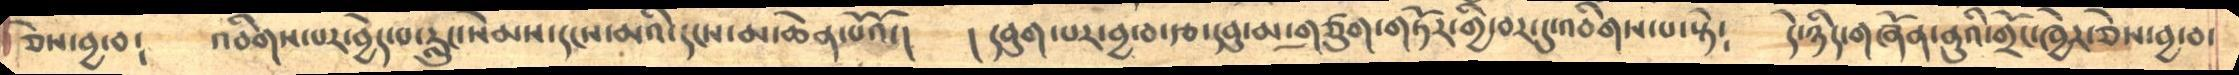ཅེས་བྱ་བ༴   འབིགས་པར་བྱེད་པ་རླུང་སེམས་དངས་མའི་དངས་མ་ཆེན་པོའོ་།    ། དབུག་པར་བྱ་བ་རྩ་དབུ་མ་གཙུག་གཏོར་གྱི་བར་དུ་འབིགས་པ་སྟེ༴    དེ་ཉིད་གཞོན་ནུའི་གྲོང་ཁྱེར་ཅེས་བྱ་བ་
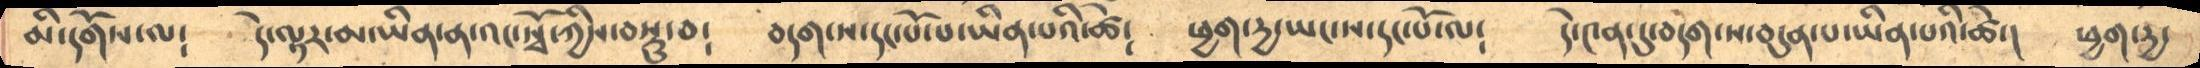མི་དགོས་ལ༴    དེ་ལྟར་མ་ཡིན་ན་འང་སྭོ་ཀྱིས་བསྡུ་བ༴    བདག་ས་དང་པོ་པ་ཡིན་པའི་ཚེ༴    ཕྱག་དྱ་ཡང་ས་དང་པོ་ལ༴   དེ་༤ན་དུ་བདག་ས་བདུན་པ་ཡིན་པའི་ཚེ་།   ཕྱག་དྱ་
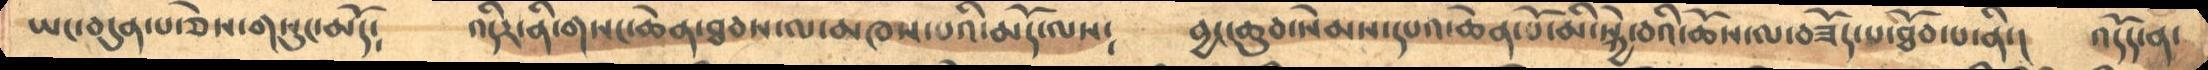ཡང་བདུན་པ་ཅེས་གསུང་མོད༴    འདིར་ནི་གསང་ཆེན་ཐབས་ལ་མཁས་པའི་མདོ་ལས༴    བྱང་ཆུབ་སེམས་དཔའ་ཆེན་པོ་མི་སྐྱེ་བའི་ཆོས་ལ་བཟོད་པ་ཐོབ་པ་ནི་།    འདོད་ན་
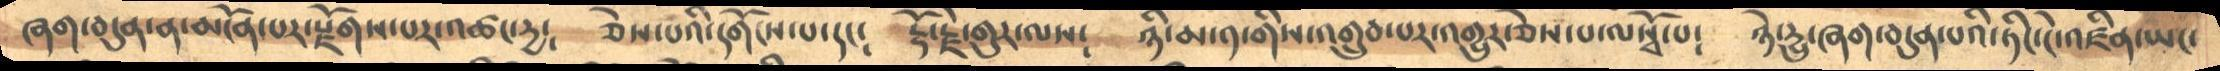ཞག་བདུན་ན་མངོན་པར་སྗོགས་པར་འཚང་དྱ༴    ཅེས་པའི་དགོངས་པ་དང༴    རྡོ་རྗེ་གུར་ལས༴     ཉི་མ་༡་གིས་འགྲུབ་པར་འགྱུར་ཅེས་པ་ལསྭོ་པ༴   ཉེ་དྱུ་ཞག་བདུན་པའི་ཏིང་ངེ་འཛིན་ཡང་
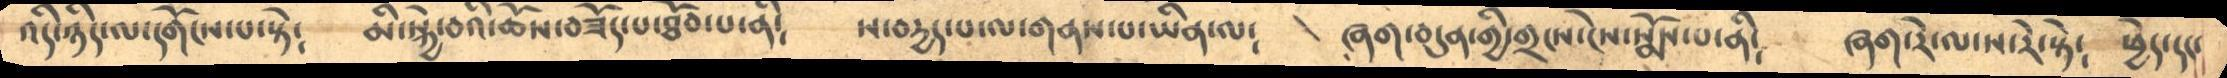འདི་ཉིད་ལ་དགོངས་པ་སྟེ༴  མི་སྐྱེ་བའི་ཆོས་བཟོད་པ་ཐོབ་པ་ནི༴   ས་བདྱད་པ་ལ་གནས་པ་ཡིན་ལ༴    ཞག་བདུན་གྱི་གྲངས་ངེས་སྨོས་པ་ནི༴   ཞག་རེ་ལ་ས་རེ་སྟེ༴   ཕྱེད་དང་
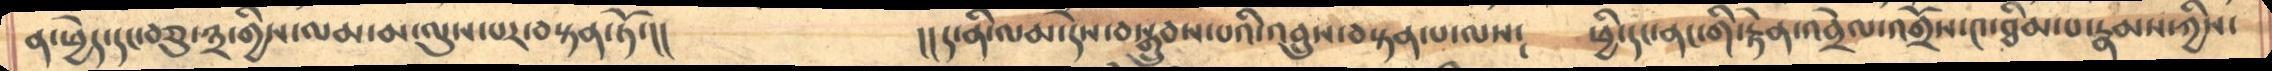ན་ཕྱེད་དང་བཅུ་༣་གྱིས་ལམ་མ་ལུས་པར་བསྟན་ཏོ་།།             །།ད་ནི་ལམ་དེས་བསྒྲུབས་པའི་འབྲུས་བསྟན་པ་ལས༴    ཕྱི་དང་ནང་གི་རྟེན་འབྲེལ་འགྲོས་༤་ཐིམ་པ་རྣམས་ཀྱིས་
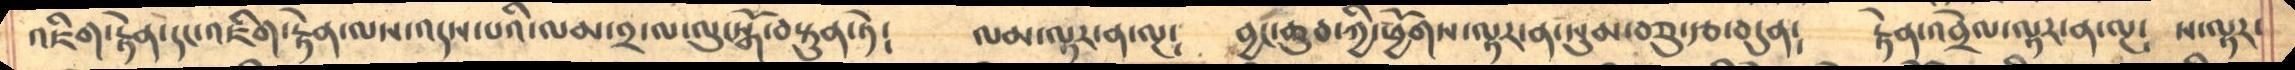འཇིག་རྟེན་དང་འཇིག་རྟེན་ལས་འདས་པའི་ལམ་༢་ལ་ལུངསྒོ་བསྟུན་ཏེ༴     ལམ་ལྟར་ན་ལྔ༴   བྱང་ཆུབ་ཀྱི་ཕྱོགས་ལྟར་ན་སུམ་བཅུ་རྩ་བདུན༴   རྟེན་འབྲེལ་ལྟར་ན་ལྔ༴   ས་ལྟར་
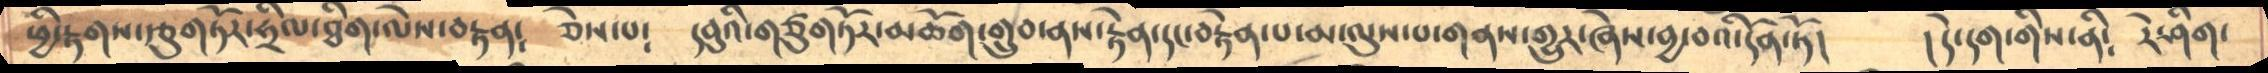ཕྱི་རྟགས་དཅུགཏོར་ཧྲིལ་ཐིག་ལེས་བརྟན༴   ཅེས་པ༴    དབུའི་གཙུག་གཏོར་མཆོག་གྲུབ་ནས་རྟེན་དང་བརྟེན་པ་མ་ལུས་པ་གནས་གྱུར་ཞེས་བྱ་བའི་དོན་ཏོ།    །དེ་དག་གིས་ནི༴    རེ་ཤིག་
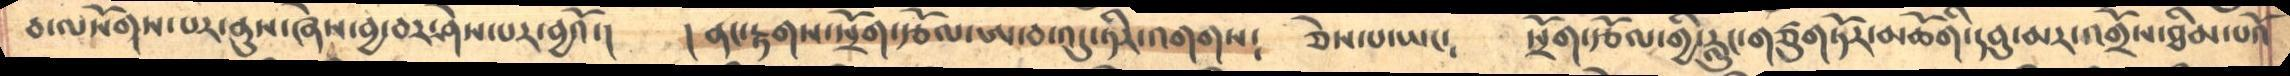བ་ལསོགས་པར་ནུས་ཞེས་བྱ་བར་ཤེས་པར་བྱའོ་།    ། ནང་རྟགས་སྲོག་དཙོལ་ཨ་བ་འདུ་ཏིར་འགགས༴    ཅེས་པ་ཡང༴    སྲོག་དཙོལ་གྱི་རླུང་གཙུགཏོར་མཆོགི་དབུ་མར་འགྲོས་ཐིམ་པའོ
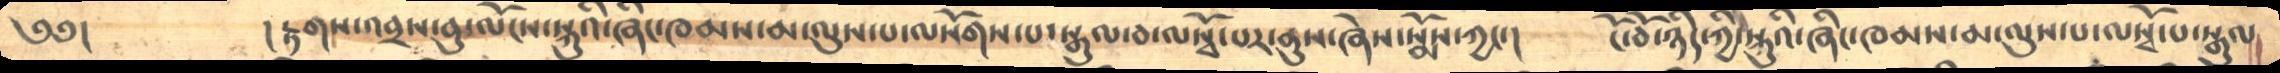༄༅།      །རྟགས་འབྲས་བུ་ལོངས་སྐུའི་ཞིང་ཁམས་མ་ལུས་པ་ལསོགས་པ་སྒུལ་བ་ལསྭོ་པར་ནུས་ཞེས་སྨོས་ཀྱང་།    ངོ་བོ་ཉིད་ཀྱི་སྐུའི་ཞིང་ཁམས་མ་ལུས་པ་ལསྭོ་པ་སྒུལ
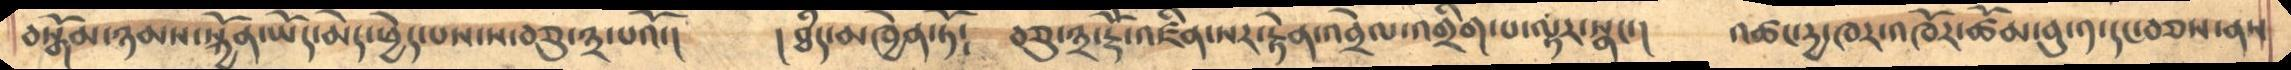བསྒོམ་ཉམས་སྐྱོན་ཡོད་མེད་ཕྱེད་པས་ས་བཅུ་༣་པའོ་།     །ཐཾད་མཁྱེན་ཏོ༴      བཅུ་༣་རྡོེ་འཛིན་སར་རྟེན་འབྲེལ་འགྲིག་པ་ལྟར་སྣང་།    འཚང་དྱ་ཁར་ཚོམ་བུ་༡་དང་བཅས་ནས
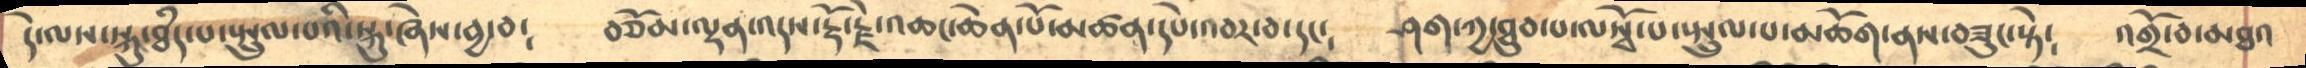དེ་ལས་སྐུ་ཐཾད་པ་སྤྲུལ་པའི་སྐུ་ཞེས་བྱ་བ༴   བཅོམ་ལྡན་འདས་རྡོ་རྗེ་འཆང་ཆེན་པོ་མཚན་དཔེ་འབར་བ་དང༴   ཤག་ཀྱ་ཐུབ་པ་ལསྭོ་པ་སྤྲུལ་པ་མཆོག་ནས་བཟུང་སྟེ༴   འགྲོ་བ་མཐའ
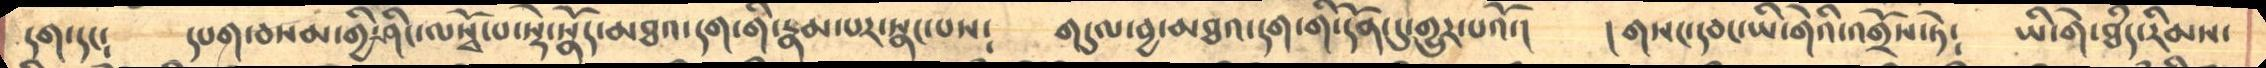དག་དང༴   དཔག་བསམ་གྱི་ཤིང་ལསྭོ་པ་སྡེ་སྣོད་མཐའ་དག་གི་རྣམ་པར་སྣང་པས༴    གདུལ་བྱ་མཐའ་དག་གི་དོན་དུ་གྱུར་པའོ་།   །གསང་དབང་ཡི་གེའི་འགྲོས་ཏེ༴   ཡི་གེ་ཐཾད་རིམས་
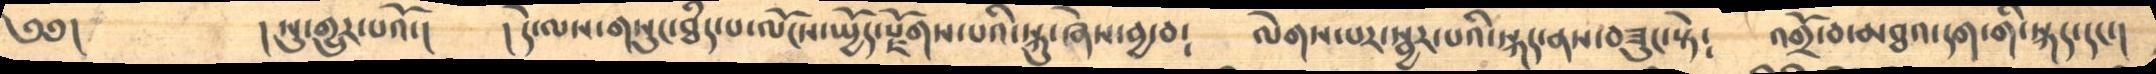༄༅།      །སུ་གྱུར་པའོ་།   །དེ་ལས་གསུང་ཐཾད་པ་ལོངས་སྤྱོད་སྗོགས་པའི་སྐུ་ཞེས་བྱ་བ༴   ལེགས་པར་སྦྱར་པའི་སྐད་ནས་བཟུང་སྟེ༴   འགྲོ་བ་མཐའ་དག་གི་སྐད་དང་།
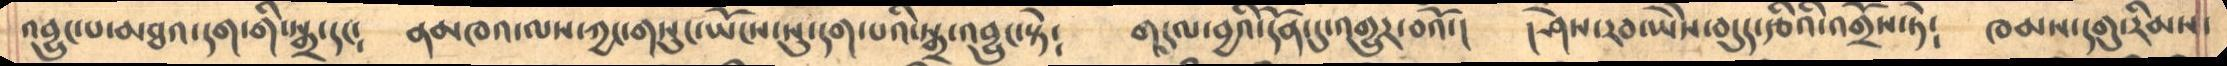འབྱུང་པ་མཐའ་དག་གི་སྒྲ་དང༴   ནམཁའ་ལས་ཀྱང་གསུང་ཡོངས་སུ་དག་པའི་སྒྲ་འབྱུང་སྟེ༴   གདུལ་བྱའི་དོན་དུ་འགྱུར་བའོ༴   །ཤེས་རབ་ཡེེས་བདུད་རྩིའི་འགྲོས་ཏེ༴   ཁམས་དགུ་རིམས་
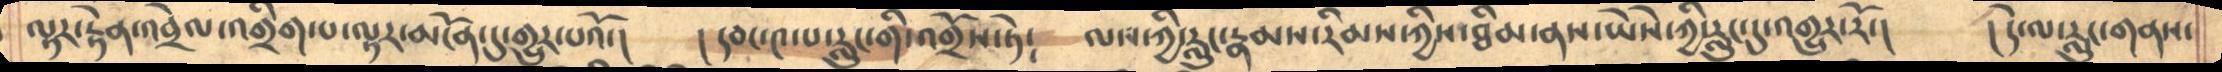ལྟར་རྟེན་འབྲེལ་འགྲིག་པ་ལྟར་མངོན་དུ་གྱུར་པའོ་།    ། དབང་༤་པ་རླུང་གི་འགྲོས་ཏེ༴     ལས་ཀྱི་རླུང་རྣམས་རིམས་ཀྱིས་ཐིམ་ནས་ཡེསེ་ཀྱི་རླུང་དུ་འགྱུར་རོ་།   ། དེ་ལ་རླུང་གནས་
